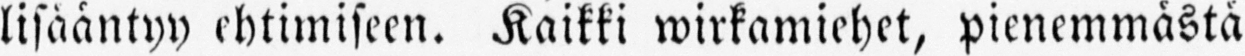lisääntyy ehtimiseen. Kaikki wirkamiehet, pienemmästä
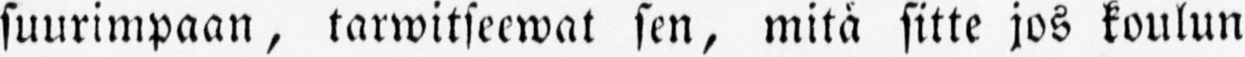suurimpaan, tarwitseewat sen, mitä sitte jos koulun
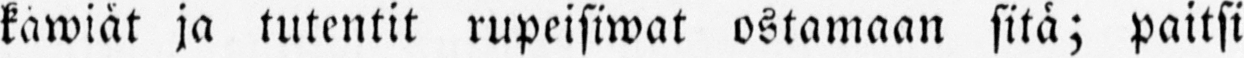käwiät ja tutentit rupeisiwat ostamaan sitä; paitsi
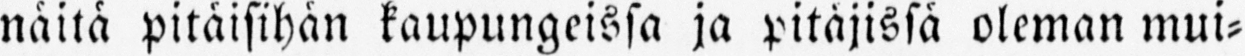näitä pitäisihän kaupungeissa ja pitäjissä oleman mui-
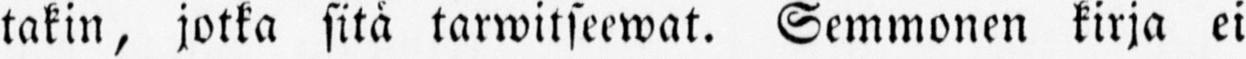takin, jotka sitä tarwitseewat. Semmonen kirja ei
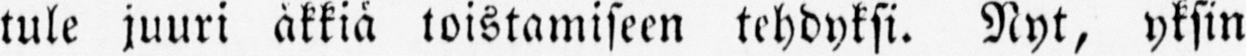tule juuri äkkiä toistamiseen tehdyksi. Nyt, yksin
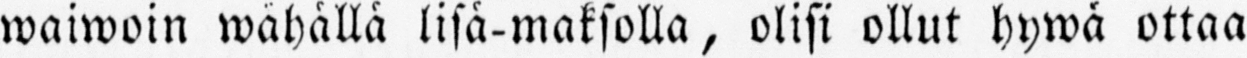waiwoin wahällä lisä-maksolla, olisi ollut hywä ottaa
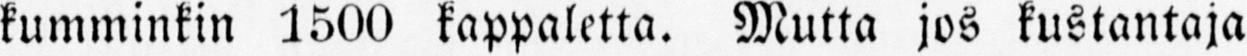kumminkin 1500 kappaletta. Mutta jos kustantaja
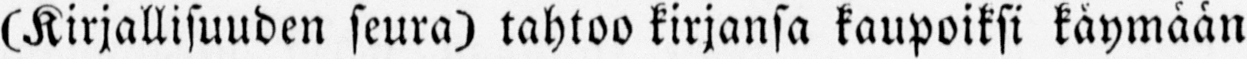(Kirjallisuuden seura) tahtoo kirjansa kaupoiksi käymään
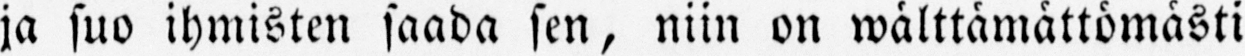ja suo ihmisten saada sen, niin on wälttämättömästi
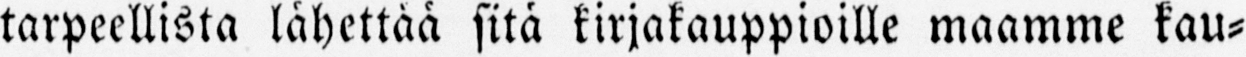tarpeellista lähettää sitä kirjakauppioille maamme kau-
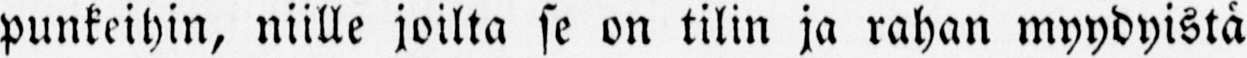punkeihin, niille joilta se on tilin ja rahan myydyistä
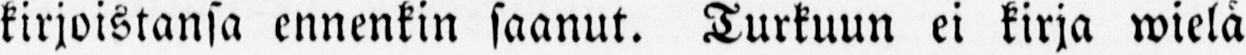kirjoistansa ennenkin saanut. Turkuun ei kirja wielä
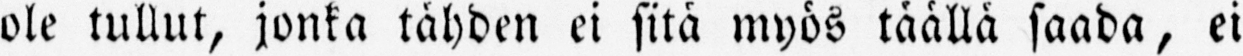ole tullut, jonka tähden ei sitä myös täällä saada, ei
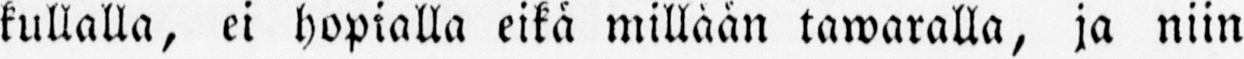kullalla, ei hopialla eikä millään tawaralla, ja niin
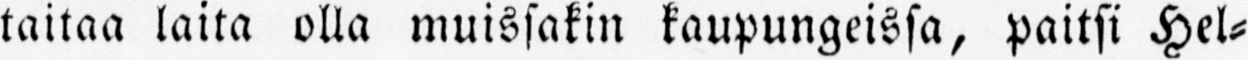taitaa laita olla muissakin kaupungeissa, paitsi Hel-
